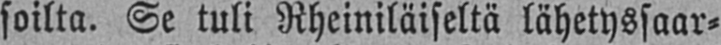soilta. Se tuli Rheiniläiseltä lähetyssaar-
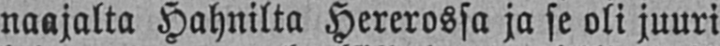naajalta Hahnilta Hererossa ja se oli juuri
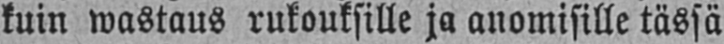kuin wastaus rukouksille ja anomisille tässä
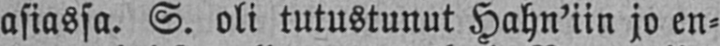asiassa. S. oli tutustunut Hahn'iin jo en-
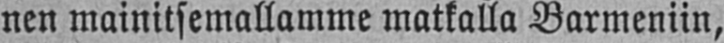nen mainitsemallamme matkalla Barmeniin,
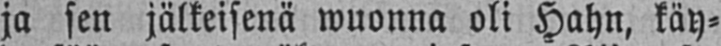ja sen jälkeisenä wuonna oli Hahn, käy-
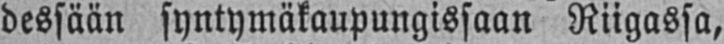dessään syntymäkaupungissaan Riigassa,
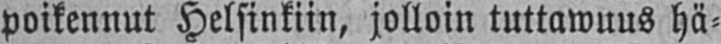poikennut Helsinkiin, jolloin tuttawuus hä-
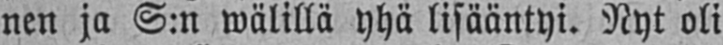nen ja S:n wälillä yhä lisääntyi. Nyt oli
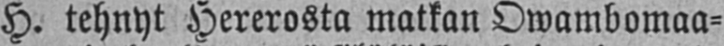H. tehnyt Hererosta matkan Owambomaa-
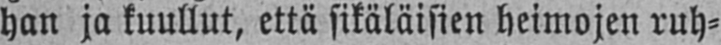han ja kuullut, että sikäläisien heimojen ruh-
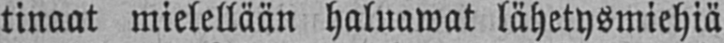tinaat mielellään haluawat lähetysmiehiä
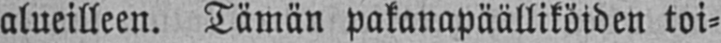alueilleen. Tämän pakanapäälliköiden toi-
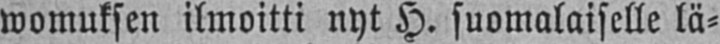womuksen ilmoitti nyt H. suomalaiselle lä-
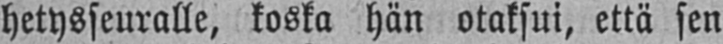hetysseuralle, koska hän otaksui, että sen
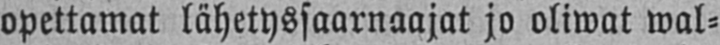opettamat lähetyssaarnaajat jo oliwat wal-
